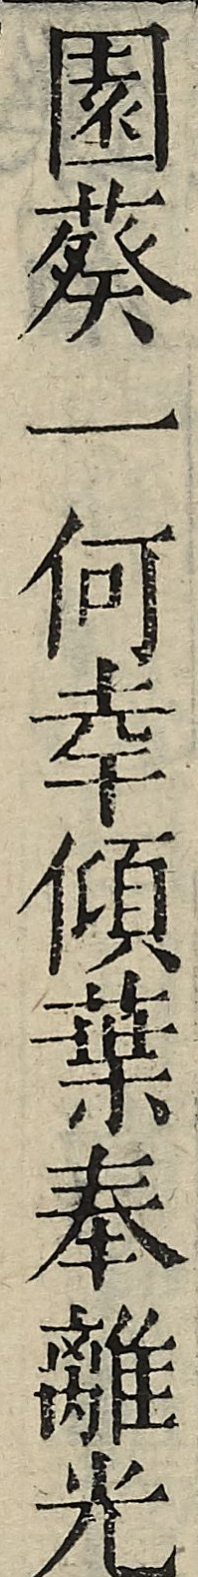園葵一何幸傾葉奉離光
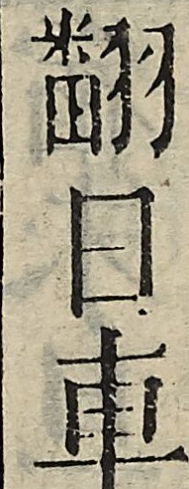翻日車
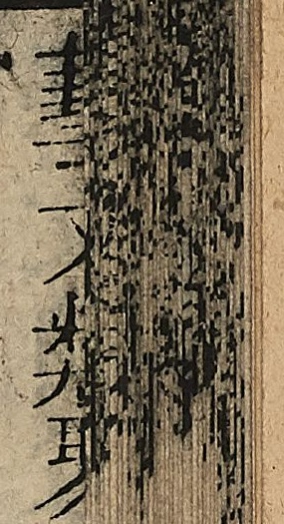藝文類聚
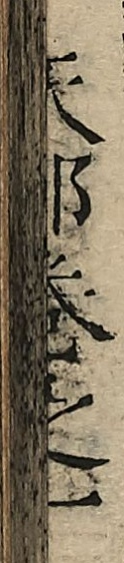宏達堂校梓
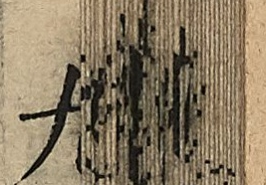九
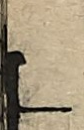十
